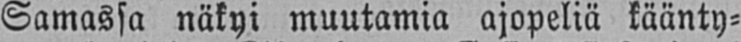Samassa näkyi muutamia ajopeliä käänty-
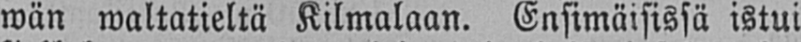wän waltatieltä Kilmalaan. Ensimäisissä istui
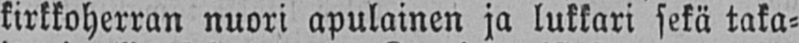kirkkoherran nuori apulainen ja lukkari sekä taka-
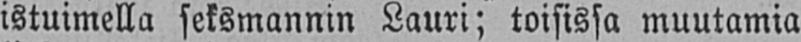istuimella seksmannin Lauri; toisissa muutamia
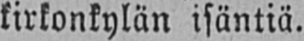kirkonkylän isäntiä.
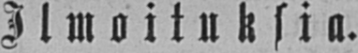Ilmoituksia.
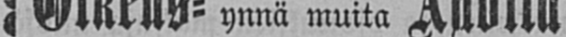Oikeus- ynnä muita Asioita
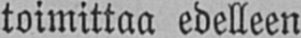toimittaa edelleen
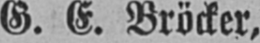G. E. Bröcker,
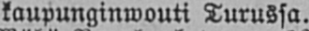kaupunginwouti Turussa.
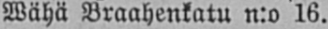Wähä Braahenkatu n:o 16.
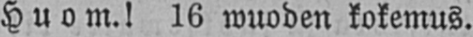Huom.! 16 wuoden kokemus.
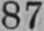87
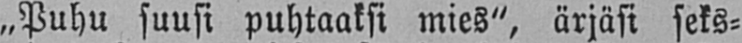„Puhu suusi puhtaaksi mies", ärjäsi seks-
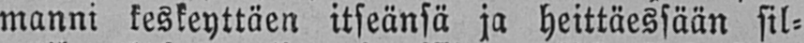manni keskeyttäen itseänsä ja heittäessään sil-
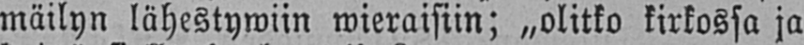mäilyn lähestywiin wieraisiin; „olitko kirkossa ja
